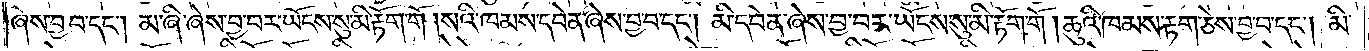ཞེས་བྱ་བ་དང༌། མ་ཞི་ཞེས་བྱ་བར་ཡོངས་སུ་མི་རྟོག་གོ །སའི་ཁམས་དབེན་ཞེས་བྱ་བ་དང༌། མི་དབེན་ཞེས་བྱ་བར་ཡོངས་སུ་མི་རྟོག་གོ །ཆུའི་ཁམས་རྟག་ཅེས་བྱ་བ་དང༌། མི་
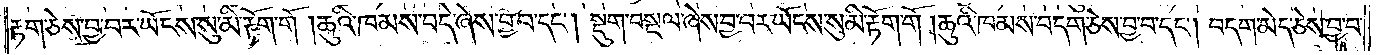རྟག་ཅེས་བྱ་བར་ཡོངས་སུ་མི་རྟོག་གོ །ཆུའི་ཁམས་བདེ་ཞེས་བྱ་བ་དང༌། སྡུག་བསྔལ་ཞེས་བྱ་བར་ཡོངས་སུ་མི་རྟོག་གོ །ཆུའི་ཁམས་བདག་ཅེས་བྱ་བ་དང༌། བདག་མེད་ཅེས་བྱ་བ་
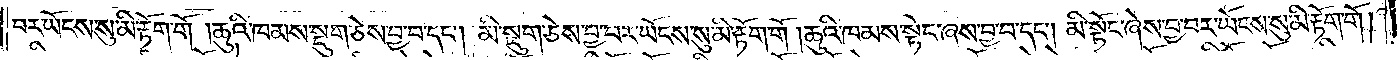བར་ཡོངས་སུ་མི་རྟོག་གོ །ཆུའི་ཁམས་སྡུག་ཅེས་བྱ་བ་དང༌། མི་སྡུག་ཅེས་བྱ་བར་ཡོངས་སུ་མི་རྟོག་གོ །ཆུའི་ཁམས་སྟོང་ཞེས་བྱ་བ་དང༌། མི་སྟོང་ཞེས་བྱ་བར་ཡོངས་སུ་མི་རྟོག་གོ །
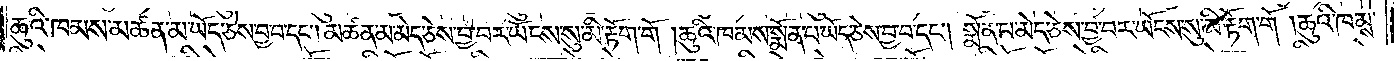ཆུའི་ཁམས་མཚན་མ་ཡོད་ཅེས་བྱ་བ་དང༌། མཚན་མ་མེད་ཅེས་བྱ་བར་ཡོངས་སུ་མི་རྟོག་གོ །ཆུའི་ཁམས་སྨོན་པ་ཡོད་ཅེས་བྱ་བ་དང༌། སྨོན་པ་མེད་ཅེས་བྱ་བར་ཡོངས་སུ་མི་རྟོག་གོ །ཆུའི་ཁམས་
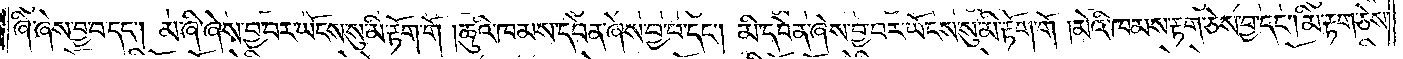ཞི་ཞེས་བྱ་བ་དང༌། མ་ཞི་ཞེས་བྱ་བར་ཡོངས་སུ་མི་རྟོག་གོ །ཆུའི་ཁམས་དབེན་ཞེས་བྱ་བ་དང༌། མི་དབེན་ཞེས་བྱ་བར་ཡོངས་སུ་མེ་རྟོག་གོ །མེའི་ཁམས་རྟག་ཅེས་བྱ་བ་དང༌། མི་རྟག་ཅེས་
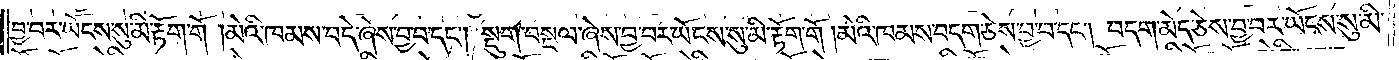བྱ་བར་ཡོངས་སུ་མི་རྟོག་གོ །མེའི་ཁམས་བདེ་ཞེས་བྱ་བ་དང༌། སྡུག་བསྔལ་ཞེས་བྱ་བར་ཡོངས་སུ་མི་རྟོག་གོ །མེའི་ཁམས་བདག་ཅེས་བྱ་བ་དང༌། བདག་མེད་ཅེས་བྱ་བར་ཡོངས་སུ་མི་
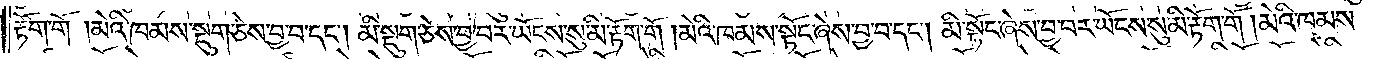རྟོག་གོ །མེའི་ཁམས་སྡུག་ཅེས་བྱ་བ་དང༌། མི་སྡུག་ཅེས་བྱ་བར་ཡོངས་སུ་མི་རྟོག་གོ །མེའི་ཁམས་སྟོང་ཞེས་བྱ་བ་དང༌། མི་སྟོང་ཞེས་བྱ་བར་ཡོངས་སུ་མི་རྟོག་གོ །མེའི་ཁམས་
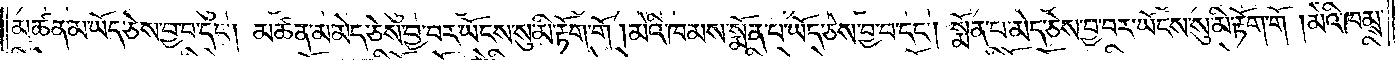མཚན་མ་ཡོད་ཅེས་བྱ་བ་དང༌། མཚན་མ་མེད་ཅེས་བྱ་བར་ཡོངས་སུ་མི་རྟོག་གོ །མེའི་ཁམས་སྨོན་པ་ཡོད་ཅེས་བྱ་བ་དང༌། སྨོན་པ་མེད་ཅེས་བྱ་བར་ཡོངས་སུ་མི་རྟོག་གོ །མེའི་ཁམས་
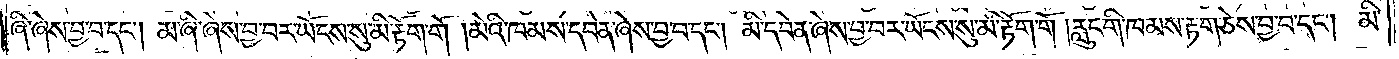ཞི་ཞེས་བྱ་བ་དང༌། མ་ཞི་ཞེས་བྱ་བར་ཡོངས་སུ་མི་རྟོག་གོ །མེའི་ཁམས་དབེན་ཞེས་བྱ་བ་དང༌། མི་དབེན་ཞེས་བྱ་བར་ཡོངས་སུ་མི་རྟོག་གོ །རླུང་གི་ཁམས་རྟག་ཅེས་བྱ་བ་དང༌། མི་
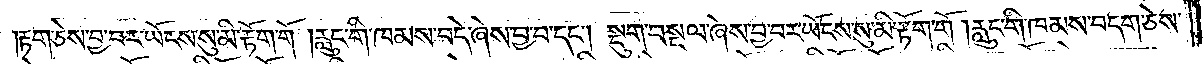རྟག་ཅེས་བྱ་བར་ཡོངས་སུ་མི་རྟོག་གོ །རླུང་གི་ཁམས་བདེ་ཞེས་བྱ་བ་དང༌། སྡུག་བསྔལ་ཞེས་བྱ་བར་ཡོངས་སུ་མི་རྟོག་གོ །རླུང་གི་ཁམས་བདག་ཅེས་
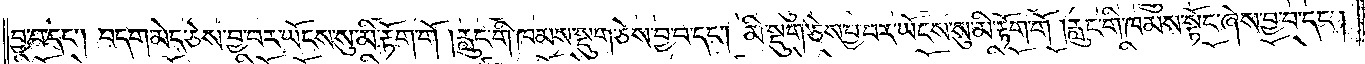བྱ་བ་དང༌། བདག་མེད་ཅེས་བྱ་བར་ཡོངས་སུ་མི་རྟོག་གོ །རླུང་གི་ཁམས་སྡུག་ཅེས་བྱ་བ་དང༌། མི་སྡུག་ཅེས་བྱ་བར་ཡོངས་སུ་མི་རྟོག་གོ །རླུང་གི་ཁམས་སྟོང་ཞེས་བྱ་བ་དང༌།
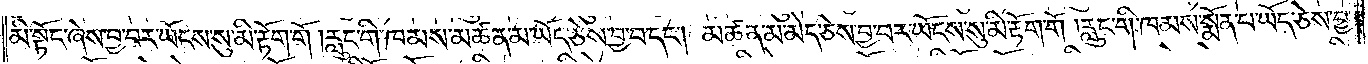མི་སྟོང་ཞེས་བྱ་བར་ཡོངས་སུ་མི་རྟོག་གོ །རླུང་གི་ཁམས་མཚན་མ་ཡོད་ཅེས་བྱ་བ་དང༌། མཚན་མ་མེད་ཅེས་བྱ་བར་ཡོངས་སུ་མི་རྟོག་གོ །རླུང་གི་ཁམས་སྨོན་པ་ཡོད་ཅེས་བྱ་
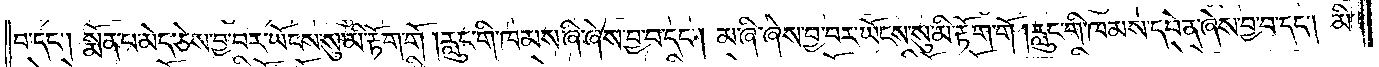བ་དང༌། སྨོན་པ་མེད་ཅེས་བྱ་བར་ཡོངས་སུ་མི་རྟོག་གོ །རླུང་གི་ཁམས་ཞི་ཞེས་བྱ་བ་དང༌། མ་ཞི་ཞེས་བྱ་བར་ཡོངས་སུ་མི་རྟོག་གོ །རླུང་གི་ཁམས་དབེན་ཞེས་བྱ་བ་དང༌། མི་
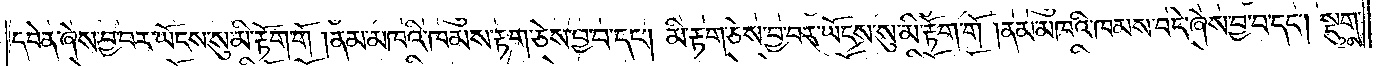དབེན་ཞེས་བྱ་བར་ཡོངས་སུ་མི་རྟོག་གོ །ནམ་མཁའི་ཁམས་རྟག་ཅེས་བྱ་བ་དང༌། མི་རྟག་ཅེས་བྱ་བར་ཡོངས་སུ་མི་རྟོག་གོ །ནམ་མཁའི་ཁམས་བདེ་ཞེས་བྱ་བ་དང༌། སྡུག་
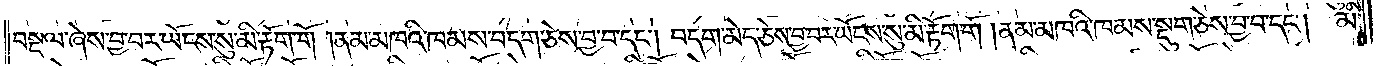བསྔལ་ཞེས་བྱ་བར་ཡོངས་སུ་མི་རྟོག་གོ །ནམ་མཁའི་ཁམས་བདག་ཅེས་བྱ་བ་དང༌། བདག་མེད་ཅེས་བྱ་བར་ཡོངས་སུ་མི་རྟོག་གོ །ནམ་མཁའི་ཁམས་སྡུག་ཅེས་བྱ་བ་དང༌། མི་
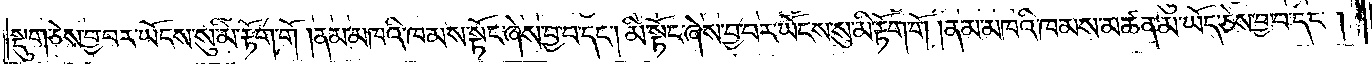སྡུག་ཅེས་བྱ་བར་ཡོངས་སུ་མི་རྟོག་གོ །ནམ་མཁའི་ཁམས་སྟོང་ཞེས་བྱ་བ་དང༌། མི་སྟོང་ཞེས་བྱ་བར་ཡོངས་སུ་མི་རྟོག་གོ །ནམ་མཁའི་ཁམས་མཚན་མ་ཡོད་ཅེས་བྱ་བ་དང༌།
